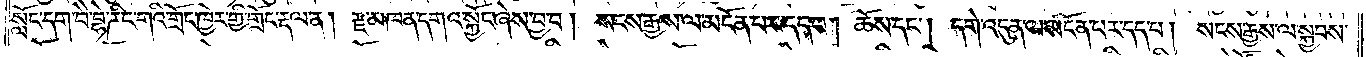སློང་དག་བཻ་བྷེ་ཌིང་གའི་གྲོང་ཁྱེར་གྱི་གྲོང་རྡལ་ན། རྫ་མཁན་དགའ་སྐྱོང་ཞེས་བྱ་བ། སངས་རྒྱས་ལ་མངོན་པར་དད་པ། ཆོས་དང༌། དགེ་འདུན་ལ་མངོན་པར་དད་པ། སངས་རྒྱས་ལ་སྐྱབས་
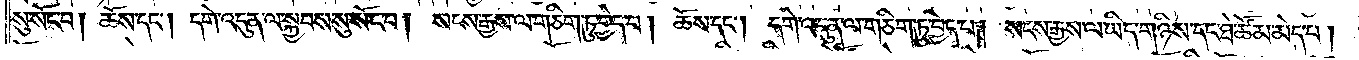སུ་སོང་བ། ཆོས་དང༌། དགེ་འདུན་ལ་སྐྱབས་སུ་སོང་བ། སངས་རྒྱས་ལ་གཅིག་ཏུ་བྱེད་པ། ཆོས་དང༌། དགེ་འདུན་ལ་གཅིག་ཏུ་བྱེད་པ། སངས་རྒྱས་ལ་ཡིད་གཉིས་དང་ཐེ་ཚོམ་མེད་པ།
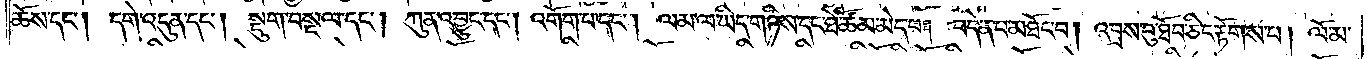ཆོས་དང༌། དགེ་འདུན་དང༌། སྡུག་བསྔལ་དང༌། ཀུན་འབྱུང་དང༌། འགོག་པ་དང༌། ལམ་ལ་ཡིད་གཉིས་དང་ཐེ་ཚོམ་མེད་པ། བདེན་པ་མཐོང་བ། འབྲས་བུ་ཐོབ་ཅིང་རྟོགས་པ། ལོ་མ་
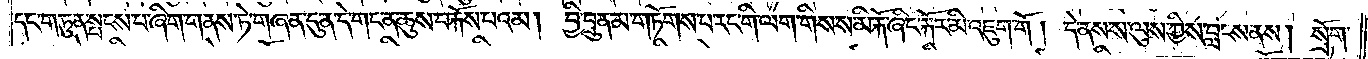དང་གཏུན་སྤངས་པ་ཞིག་གནས་ཏེ་གཞན་དུ་ན་དེ་གང་ན་ཆུས་བརྐོས་པའམ། བྱི་བྲུན་མ་གཏོགས་པ་རང་གི་ལག་གིས་ས་མི་རྐོ་ཞིང་རྐོར་མི་འཇུག་གོ །དེ་ནས་ས་ལུས་ཀྱིས་བླངས་ནས། སྲོག་
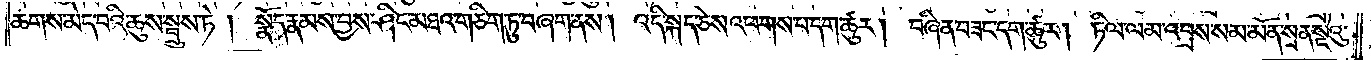ཆགས་མེད་པའི་ཆུས་སྦྲུས་ཏེ། སྣོད་རྣམས་བྱས་ཤིང་མཐའ་གཅིག་ཏུ་བཞག་ནས། འདི་སྐད་ཅེས་འཕགས་པ་དག་ཚུར། བཞིན་བཟང་དག་ཚུར། ཏིལ་ལམ་འབྲས་སམ་མོན་སྲན་སྡེའུ་
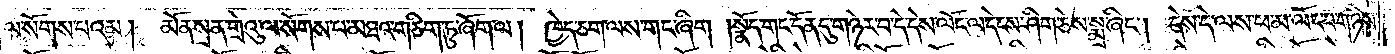ལ་སོགས་པའམ། མོན་སྲན་གྲེའུ་ལ་སོགས་པ་མཐའ་གཅིག་ཏུ་ཞོག་ལ། ཁྱེད་ཅག་ལས་གང་ཞིག །སྣོད་གང་དོན་དུ་གཉེར་བ་དེ་དེས་ལོང་ལ་དེངས་ཤིག་ཅེས་སྨྲ་ཞིང༌། དེས་དེ་ལས་ཕ་མ་ལོང་བ་གཉིས་
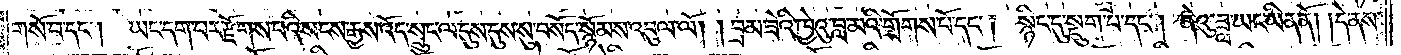གསོ་བ་དང༌། ཡང་དག་པར་རྫོགས་པའི་སངས་རྒྱས་འོད་སྲུང་ལ་དུས་དུས་སུ་བསོད་སྙོམས་འབུལ་ལོ། །བྲམ་ཟེའི་ཁྱེའུ་བླ་མའི་གྲོགས་པོ་དང༌། སྙིང་དུ་སྡུག་པ་དང༌། ནེའུ་ཟླ་ཡང་ཡིན་ནོ། །དེ་ནས་
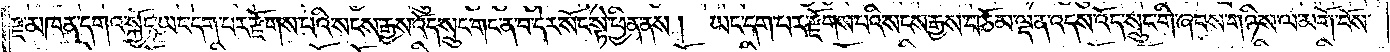རྫ་མཁན་དགའ་སྐྱོང་ཡང་དག་པར་རྫོགས་པའི་སངས་རྒྱས་འོད་སྲུང་གང་ན་བ་དེར་སོང་སྟེ་ཕྱིན་ནས། ཡང་དག་པར་རྫོགས་པའི་སངས་རྒྱས་བཅོམ་ལྡན་འདས་འོད་སྲུང་གི་ཞབས་གཉིས་ལ་མགོ་བོས་
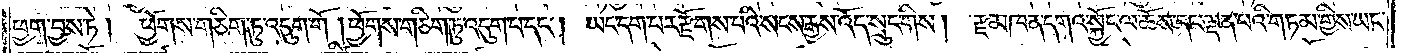ཕྱག་བྱས་ཏེ། ཕྱོགས་གཅིག་ཏུ་འདུག་གོ །ཕྱོགས་གཅིག་ཏུ་འདུག་པ་དང༌། ཡང་དག་པར་རྫོགས་པའི་སངས་རྒྱས་འོད་སྲུང་གིས། རྫ་མཁན་དགའ་སྐྱོང་ལ་ཆོས་དང་ལྡན་པའི་གཏམ་གྱིས་ཡང་
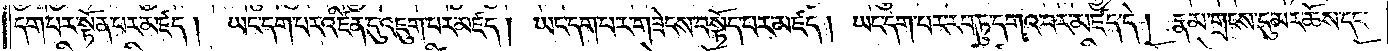དག་པར་སྟོན་པར་མཛད། ཡང་དག་པར་འཛིན་དུ་འཇུག་པར་མཛད། ཡང་དག་པར་གཟེངས་བསྟོད་པར་མཛད། ཡང་དག་པར་རབ་ཏུ་དགའ་བར་མཛད་དེ། རྣམ་གྲངས་དུ་མར་ཆོས་དང་
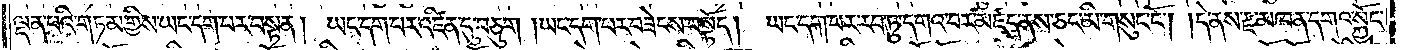ལྡན་པའི་གཏམ་གྱིས་ཡང་དག་པར་བསྟན། ཡང་དག་པར་འཛིན་དུ་བཅུག །ཡང་དག་པར་བཟེངས་བསྟོད། ཡང་དག་པར་རབ་ཏུ་དགའ་བར་མཛད་ནས་ཅང་མི་གསུང་ངོ༌། །དེ་ནས་རྫ་མཁན་དགའ་སྐྱོང་
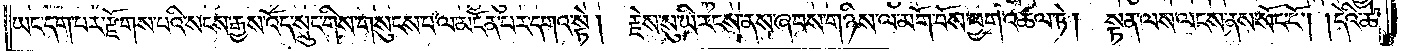ཡང་དག་པར་རྫོགས་པའི་སངས་རྒྱས་འོད་སྲུང་གིས་གསུངས་པ་ལ་མངོན་པར་དགའ་སྟེ། རྗེས་སུ་ཡི་རངས་ནས་ཞབས་གཉིས་ལ་མགོ་བོས་ཕྱག་འཚལ་ཏེ།  སྟན་ལས་ལངས་ནས་སོང་ངོ༌། །དེའི་ཚེ་
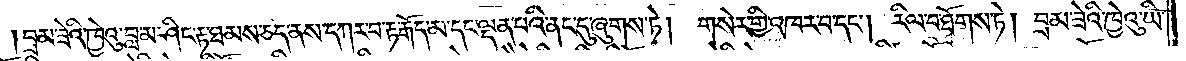བྲམ་ཟེའི་ཁྱེའུ་བླ་མ་ཤིང་རྟ་ཐམས་ཅད་ནས་དཀར་བ་རྟ་རྒོད་མ་དང་ལྡན་པའི་ནང་དུ་ཞུགས་ཏེ། གསེར་གྱི་འཁར་བ་དང༌། རིལ་བ་ཐོགས་ཏེ། བྲམ་ཟེའི་ཁྱེའུ་ཡི་
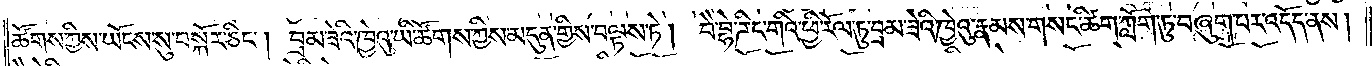ཚོགས་ཀྱིས་ཡོངས་སུ་བསྐོར་ཅིང༌། བྲམ་ཟེའི་ཁྱེའུ་ཡི་ཚོགས་ཀྱིས་མདུན་གྱིས་བལྟས་ཏེ། བཻ་བྷེ་ཌིང་གའི་ཕྱི་རོལ་ཏུ་བྲམ་ཟེའི་ཁྱེའུ་རྣམས་གསང་ཚིག་ཀློག་ཏུ་བཞུག་པར་འདོད་ནས།
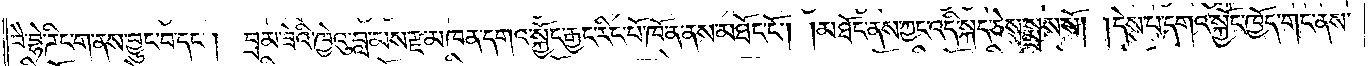བཻ་བྷེ་ཌིང་གནས་བྱུང་བ་དང༌། བྲམ་ཟེའི་ཁྱེའུ་བླ་མས་རྫ་མཁན་དགའ་སྐྱོང་རྒྱང་རིང་པོ་ཁོ་ན་ནས་མཐོང་ངོ༌། །མཐོང་ནས་ཀྱང་འདི་སྐད་ཅེས་སྨྲས་སོ། །དེས་པ་དགའ་སྐྱོང་ཁྱོད་གང་ནས་
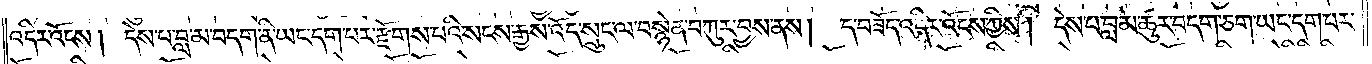འདིར་འོངས། དེས་པ་བླ་མ་བདག་ནི་ཡང་དག་པར་རྫོགས་པའི་སངས་རྒྱས་འོད་སྲུང་ལ་བསྙེན་བཀུར་བྱས་ནས། ད་བཟོད་འདིར་འོངས་ཀྱིས། དེས་པ་བླ་མ་ཚུར་བདག་ཅག་ཡང་དག་པར་
